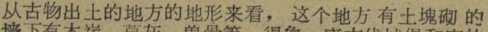从古物出土的地方的地形来看，这个地方 有 土塊砌 的
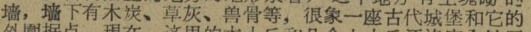墙，墙下有木炭、草灰、兽骨等，很象一座古代城堡和它的
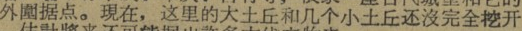外圍据点。現在，这里的大土丘和几个小土丘还沒完全挖开
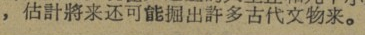，估計將来还可能决出許多古代文物来。
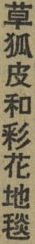草狐皮和彩花地毯
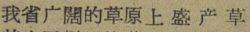我省广闊的草原上 盛 产 草
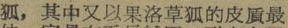狐，其中又以果洛草狐的皮貭最
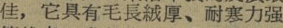佳，它具有毛長絨厚、耐寒力强
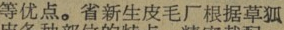等优点。省新生皮毛厂根据草狐
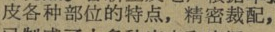皮各种部位的特点，精密裁配，
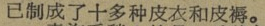已制成了十多种皮衣和皮褥。
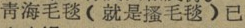靑海毛毯（就是搔毛毯）已
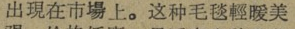出現在市場上。这种毛毯輕暖美
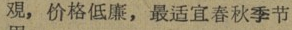覌，价格低廉，最适宜春秋季节
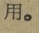用。
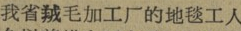我省羢毛加工厂的地毯工人
